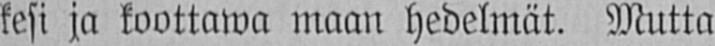kesi ja koottawa maan hedelmät. Mutta
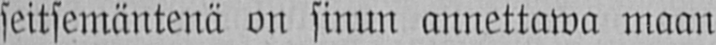seitsemäntenä on sinun annettawa maan
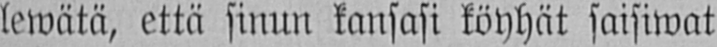lewätä, että sinun kansasi köyhät saisiwat
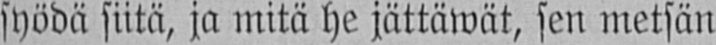syödä siitä, ja mitä he jättäwät, sen metsän
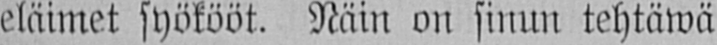eläimet syökööt. Näin on sinun tehtäwä
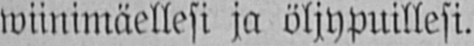wiinimäellesi ja öljypuillesi.
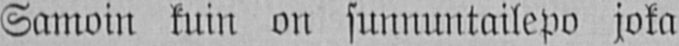Samoin kuin on sunnuntailepo joka
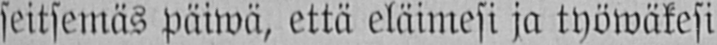seitsemäs päiwä, että eläimesi ja työwäkesi
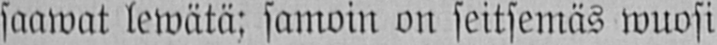saawat lewätä: samoin on seitsemäs wuosi
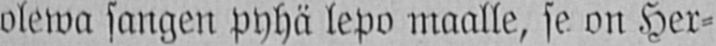olewa sangen pyhä lepo maalle, se on Her-
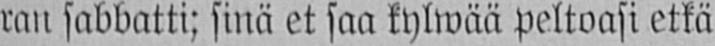ran sabbatti: sinä et saa kylwää peltoasi etkä
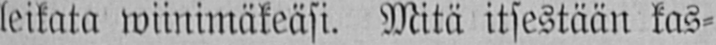leikata wiinimäkeäsi. Mitä itsestään kas-
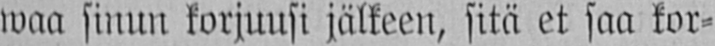waa sinun korjuusi jälkeen, sitä et saa kor-
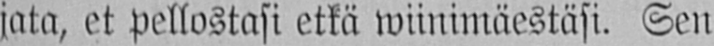jata, et pellostasi etkä wiinimäestäsi. Sen
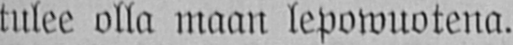tulee olla maan lepowuotena.
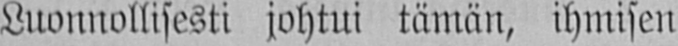Luonnollisesti johtui tämän, ihmisen
